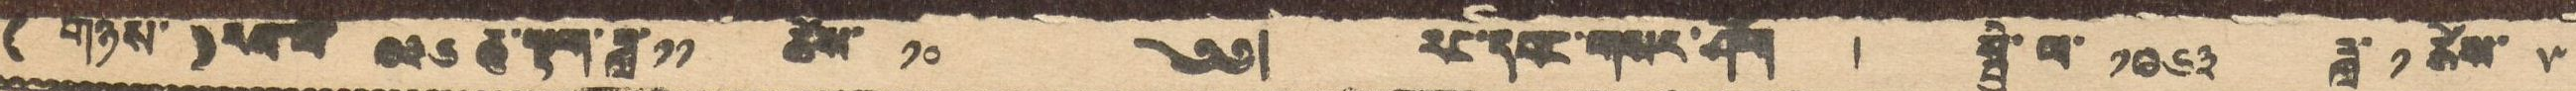(གཉིས་) རབ་ལོ  ༩༣༦ ཆུ་སྟག་ཟླ་༡༡ ཚེས་ ༡༠ ༄༅། རང་དབང་གསར་ཤོག ། སྤྱི་ལོ་ ༡༩༦༣ ཟླ་ ༡ ཚེས་ ༥
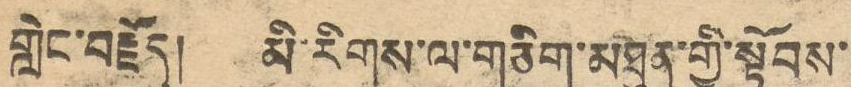གླིང་བརྗོད། མི་རིགས་ལ་གཅིག་མཐུན་གྱི་སྟོབས་
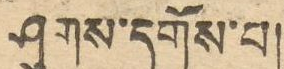ཤུགས་དགོས་པ།
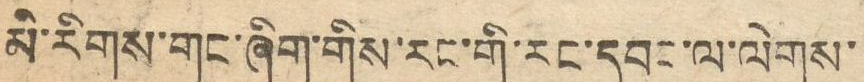མི་རིགས་གང་ཞིག་གིས་རང་གི་རང་དབང་ལ་ལེགས་
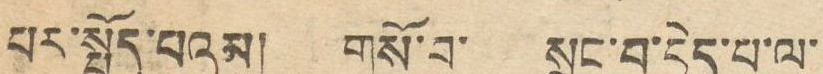པར་སྤྱོད་པའམ། གསོ་བ་ སྲུང་བ་བྱེད་པ་ལ་
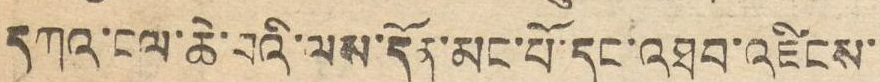དཀའ་ངལ་ཆེ་བའི་ལས་དོན་མང་པོ་དང་འཐབ་འཛིངས་
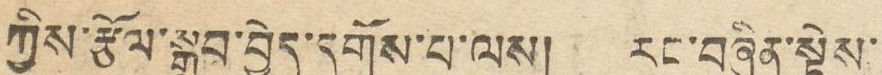ཀྱིས་རྩོལ་སྒྲུབ་བྱེད་དགོས་པ་ལས། རང་བཞིན་སྟེས་
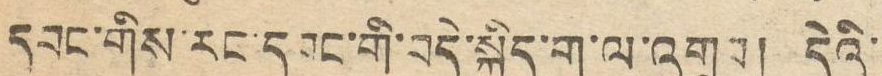དབང་གིས་རང་དབང་གི་བདེ་སྐྱིད་ག་ལ་འགྲུབ། དེའི་
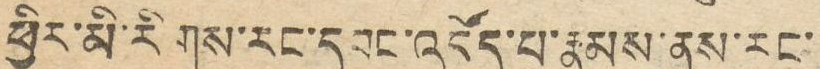ཕྱིར་མི་རིགས་རང་དབང་འདོད་པ་རྣམས་ནས་རང་
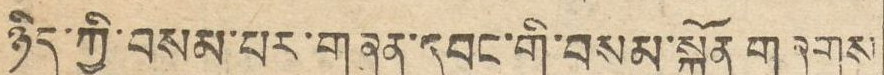ཉིད་ཀྱི་བསམ་པར་གཞན་དབང་གི་བསམ་སྐྱོན གཞུགས
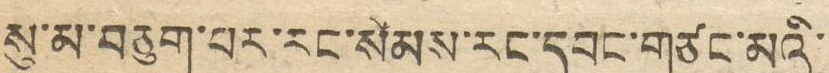སུ་མ་བཅུག་པར་རང་སེམས་རང་དབང་གཙང་མའི་
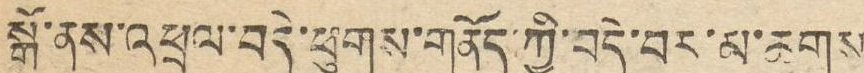སྒོ་ནས་འཕྲལ་བདེ་ཕུགས་གནོད་ཀྱི་བདེ་བར་མ་ཆགས
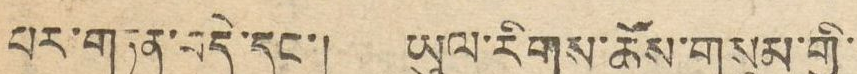པར་གཏན་བདེ་དང་། ཡུལ་རིགས་ཆོས་གསུམ་གྱི་
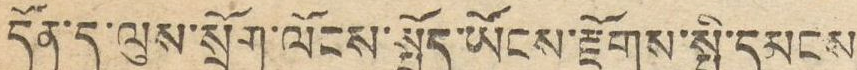དོན་དུ་ལུས་སྲོག་ལོངས་སྤྱོད་ཡོངས་རྫོགས་སྤྱི་དམངས
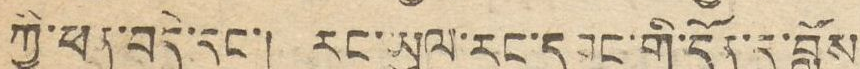ཀྱི་ཕན་བདེ་དང་། རང་ཡུལ་རང་དབང་གི་དོན་དུ་བློས
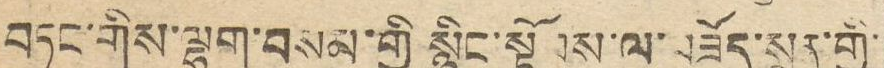བཏང་གིས་ལྷག་བསམ་གྱི སྙིང་སྟོབས་ལ་བཟོད་སྲན་གྱི་
